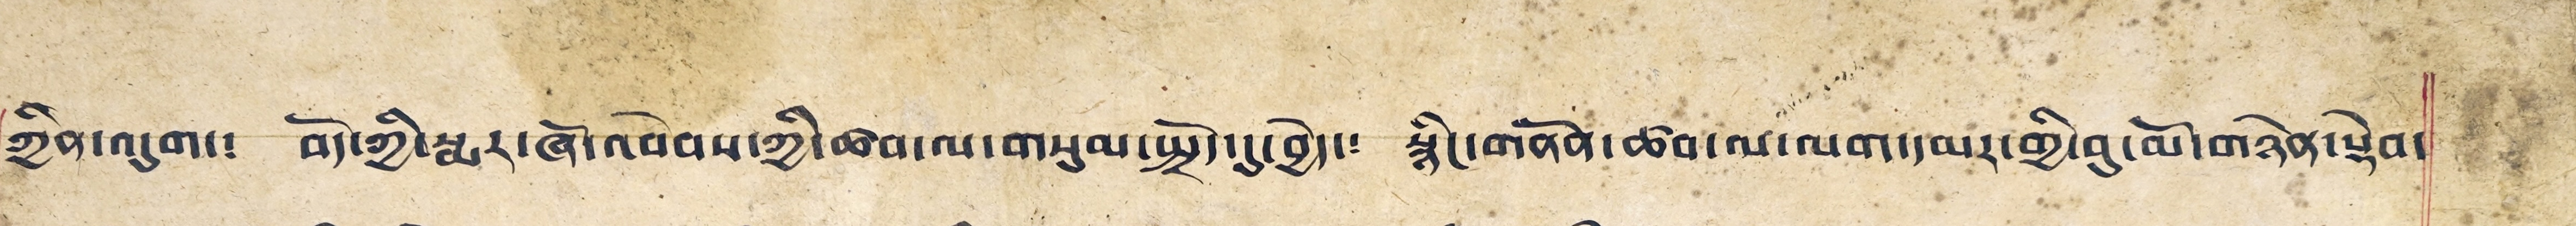ཀྱིན་འདུག་༴ བོད་ཀྱི་སྨར་ཞོ་འབེབས་ཀྱི་ཚབ་ལ་གསུམ་སྤྲོད་དུ་བྱེད་༴ སྙིང་གནོན་ཚབ་ལ་ལག་དམར་གྱི་བུ་མོ་གཉེན་སྡེབ་
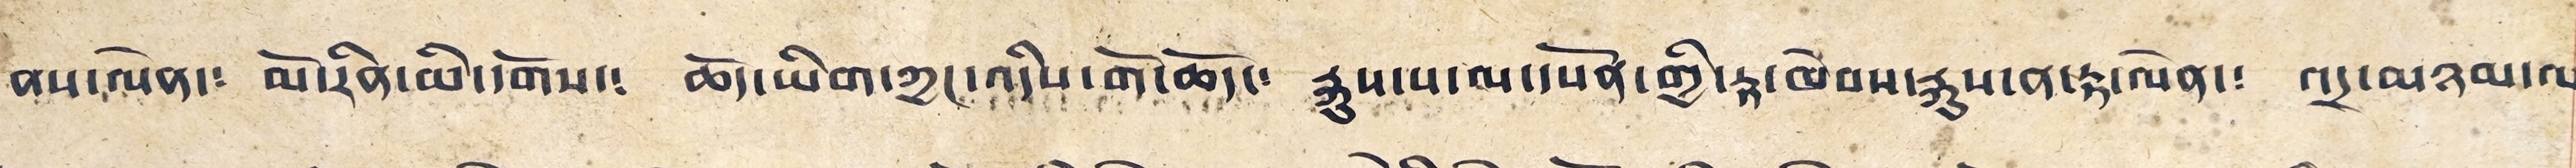ནས་ལེན་༴ མོ་རིན་མི་དགོས་༴ ཆོད་ཡིག་ཀྱང་འདིས་གོ་ཆོད་༴ རྐུས་པ་ལ་དཔོན་གྱི་རྟ་ཁེབས་རྐུས་ན་རྟ་ལེན་༴ འདྲ་མཉམ་ལ༴
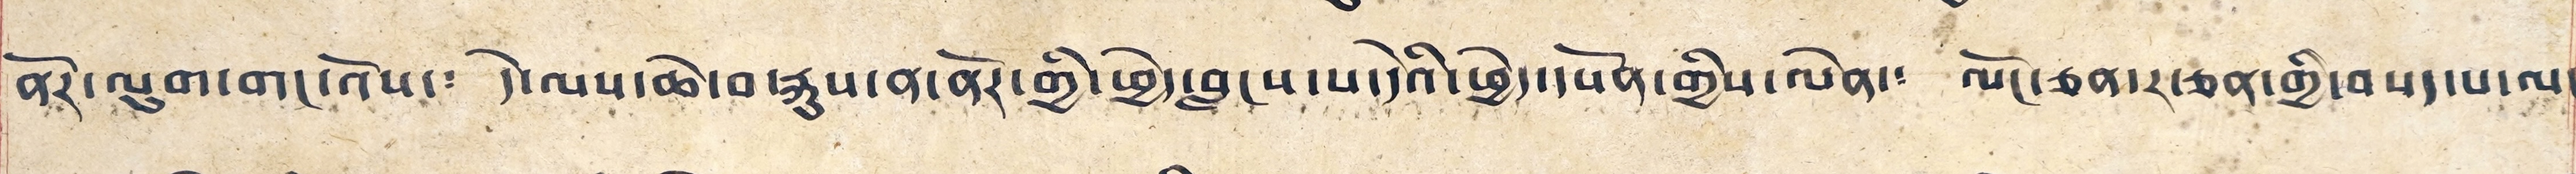ནོར་ལུག་གང་འོས་༴ དེ་ལས་ཆེ་བ་རྐུས་ན་ནོར་གྱི་ཕྱེད་བླངས་པ་དེའི་ཕྱེད་དཔོན་གྱིས་ལེན་༴ ལོང་ཅན་ར་ཅན་གྱི་བསད་པ་ལ་
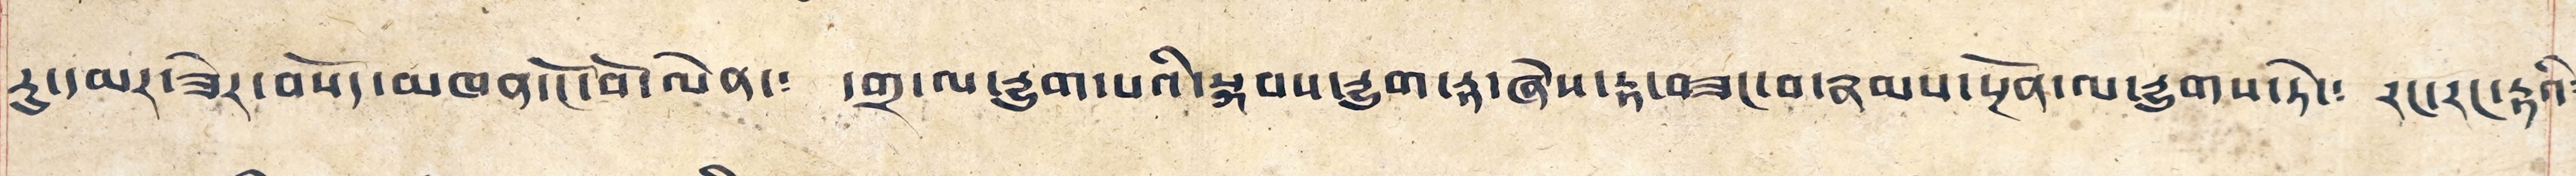རུ་དམར་ཟེར་བསོད་མཁན་ངོ་བོ་ལེན་༴ དགྲ་ལ་རྒྱུག་པའི་སྐབས་རྒྱུག་རྟ་ཞེས་རྟ་བཟང་བ་རྣམས་སྔོན་ལ་རྒྱུགས་ཏེ་༴ རང་རང་རྟའི༴
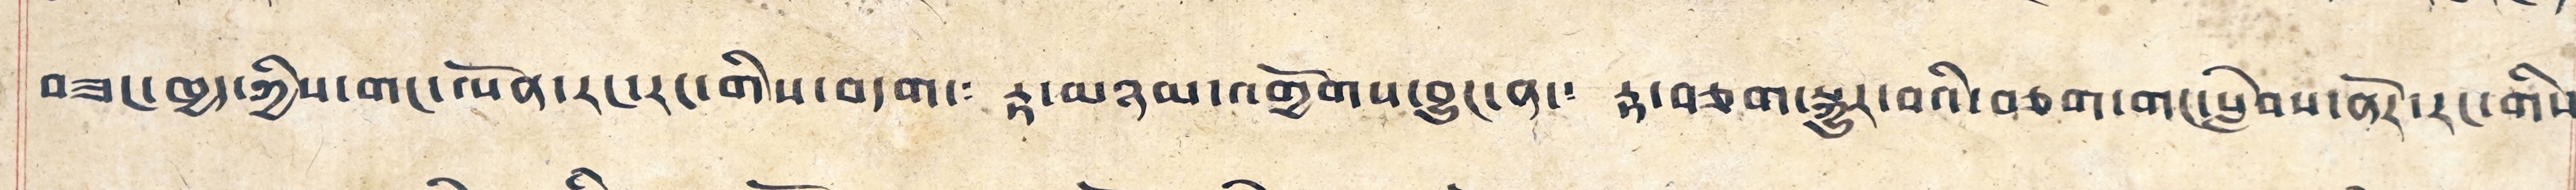བཟང་ཁྱད་ཀྱིས་གང་ལོན་རང་རང་གིས་བདག་༴ རྟ་མཉམ་འགྱོགས་བྱུང་ན་༴ རྟ་བཅག་སྐྱུར་བའི་བཅག་གང་སླེབས་ནོར་རང་གིས༴
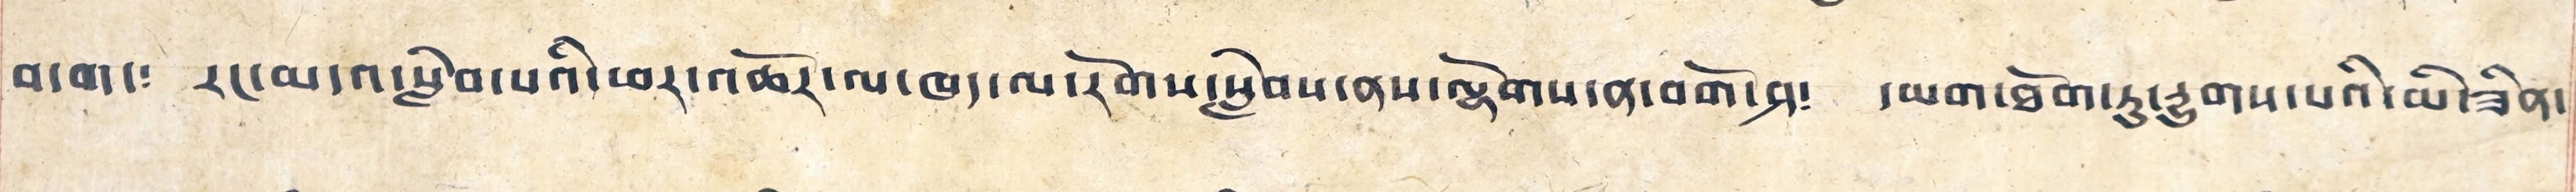བདག་༴ རང་མདའ་སླེབ་པའི་ཕར་འཆོར་ལ་ཁད་ལ་རོགས་སླེབས་ནས་ལྷོགས་ན་བགོ་ཤ་༴ དམག་ཐོག་ཏུ་རྒྱུགས་པའི་མི་ཟིན་
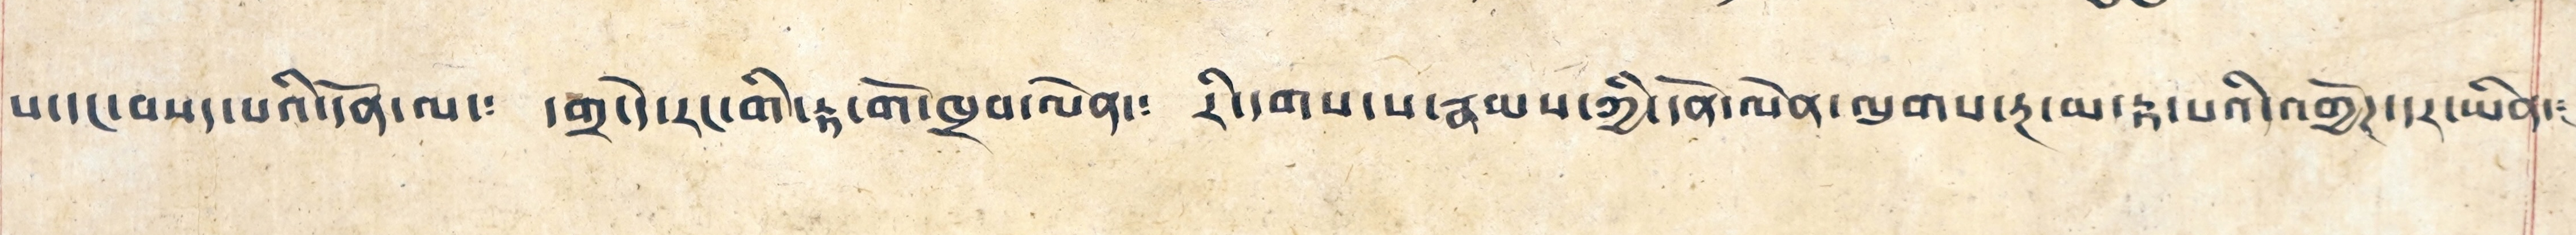པ་དང་བསད་པའི་དོན་ལ་༴ དགྲ་དེ་རང་གི་རྟ་གོ་ཁྲབ་ལེན་༴ རི་དགས་པ་རྣམས་ཀྱི་དོན་ལེན་ལུགས་རྔ་མ་རྟ་པའི་འགྱོཊ་དར་ཡིན་༴
